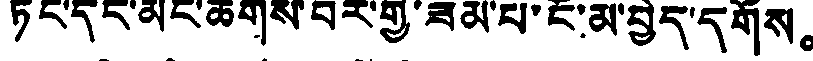ཏང་དང་མང་ཚོགས་བར་གྱི་ཟམ་པ་ངོ་མ་བྱེད་དགོས。
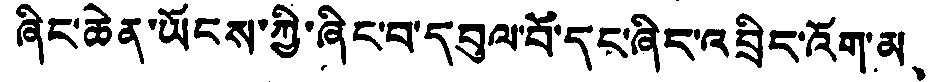ཞིང་ཆེན་ཡོངས་ཀྱི་ཞིང་བ་དབུལ་བོ་དང་ཞིང་འབྲིང་འོག་མ、
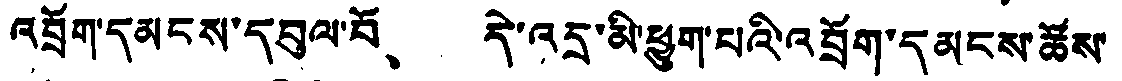འབྲོག་དམངས་དབུལ་བོ、 དེ་འདྲ་མི་ཕྱུག་པའི་འབྲོག་དམངས་ཚོས་
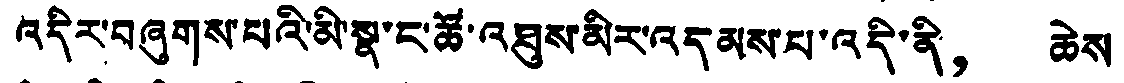འདིར་བཞུགས་པའི་མི་སྣ་ང་ཚོ་འཐུས་མིར་འདམས་པ་འདི་ནི， ཆེས
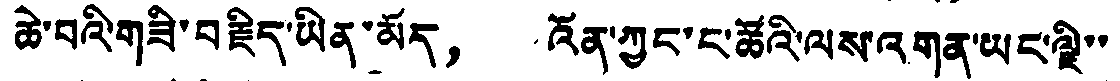ཆེ་བའི་གཟི་བརྗིད་ཡིན་མོད， འོན་ཀྱང་ང་ཚོའི་ལས་འགན་ཡང་ལྗི་་
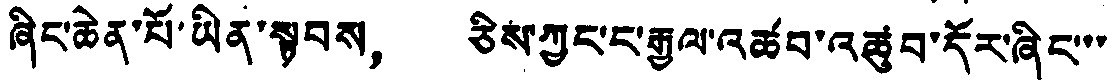ཞིང་ཆེན་པོ་ཡིན་སྟབས， ཅིས་ཀྱང་ང་རྒྱལ་འཚབ་འཚུབ་དོར་ཞིང་་་
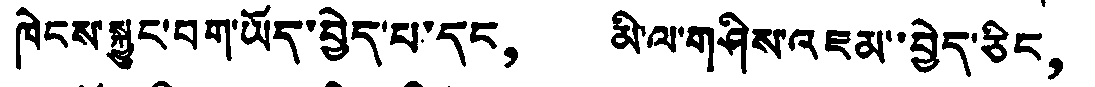ཁེངས་སྐྱུང་བག་ཡོད་བྱེད་པ་དང， མི་ལ་གཤིས་འཇམ་བྱེད་ཅིང，
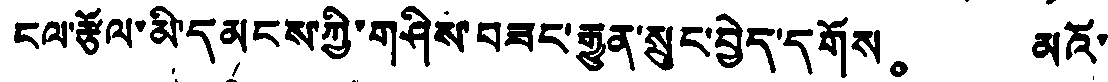ངལ་རྩོལ་མི་དམངས་ཀྱི་གཤིས་བཟང་རྒྱུན་སྲུང་བྱེད་དགོས。 མའོ་
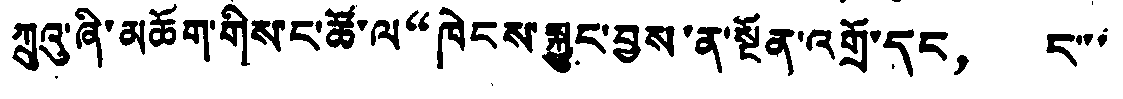ཀྲུའུ་ཞི་མཆོག་གིས་ང་ཚོ་ལ“ཁེངས་སྐྱུང་བྱས་ན་སྔོན་འགྲོ་དང， ང་་་
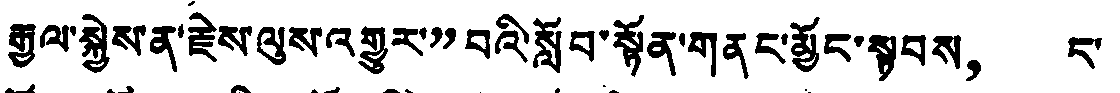རྒྱལ་སྐྱེས་ན་རྗེས་ལུས་འགྱུར”བའི་སློབ་སྟོན་གནང་མྱོང་སྟབས， ང་
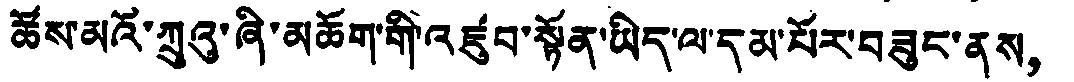ཚོས་མའོ་ཀྲུའུ་ཞི་མཆོག་གི་འཛུབ་སྟོན་ཡིད་ལ་དམ་པོར་བཟུང་ནས，
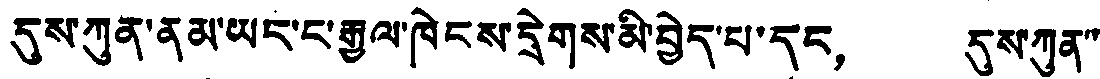དུས་ཀུན་ནམ་ཡང་ང་རྒྱལ་ཁེངས་དྲེགས་མི་བྱེད་པ་དང， དུས་ཀུན་་
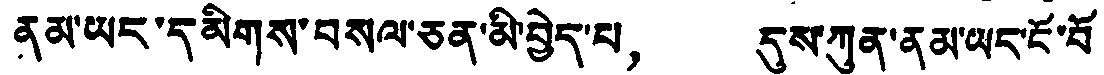ནུམ་ཡང་དམིགས་བསལ་ཅན་མི་བྱེད་པ， དུས་ཀུན་ནམ་ཡང་ངོ་བོ
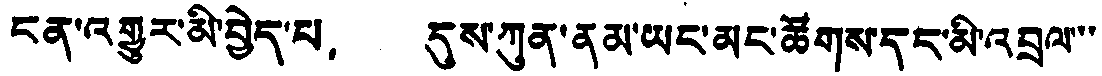ངན་འགྱུར་མི་བྱེད་པ， དུས་ཀུན་ནམ་ཡང་མང་ཚོགས་དང་མི་འབྲལ་་་
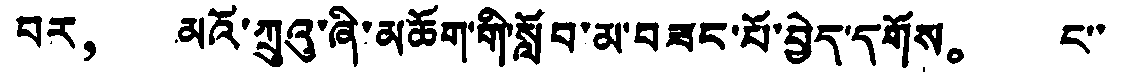པར， མའོ་ཀྲུའུ་ཞི་མཆོག་གི་སློབ་མ་བཟང་པོ་བྱེད་དགོས。 ང་
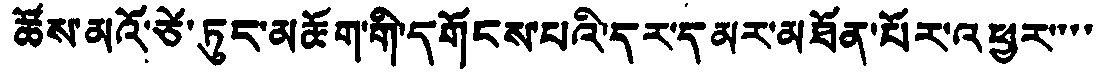ཚོས་མའོ་ཙེ་ཏུང་མཆོག་གི་དགོངས་པའི་དར་དམར་མཐོན་པོར་འཕྱར་་་་
